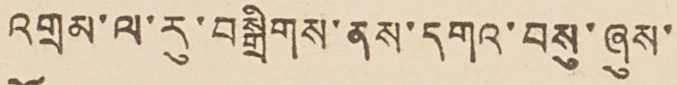འགྲམ་ལ་རུ་བསྒྲིགས་ནས་དགའ་བསུ་ཞུས་
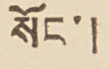སོང་།
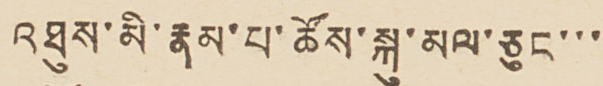འཐུས་མི་རྣམ་པ་ཚོས་སྐུ་མལ་ཅུང་་་
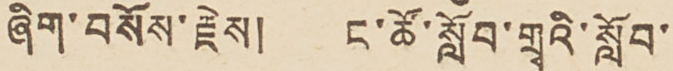ཞིག་བསོས་རྗེས། ང་ཚོ་སློབ་གྲྭའི་སློབ་
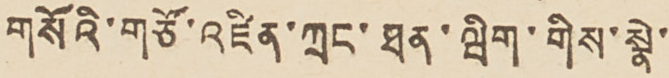གསོའི་གཙོ་འཛིན་ཀྲང་ཐན་ཝིག་གིས་སྣེ་
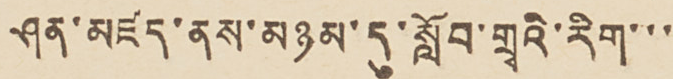ཤན་མཛད་ནས་མཉམ་དུ་སློབ་གྲྭའི་རིག་་་
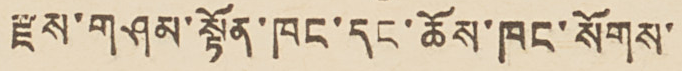རྫས་གཤམ་སྟོན་ཁང་དང་ཆོས་ཁང་སོགས་
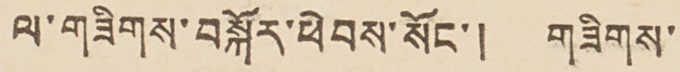ལ་གཟིགས་བསྐོར་ཕེབས་སོང་། གཟིགས་
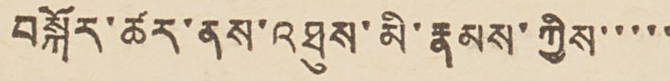བསྐོར་ཚར་ནས་འཐུས་མི་རྣམས་ཀྱིས་་་་་
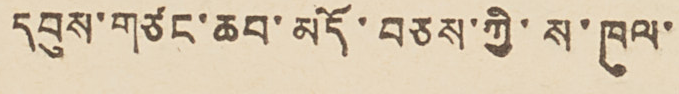དབུས་གཙང་ཆབ་མདོ་བཅས་ཀྱི་ས་ཁུལ་
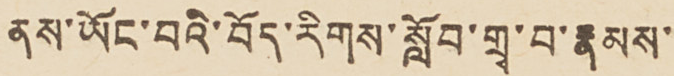ནས་ཡོང་བའི་བོད་རིགས་སློབ་གྲྭ་བ་རྣམས་
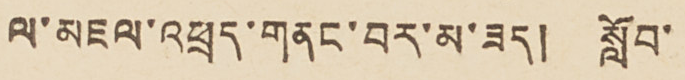ལ་མཇལ་འཕྲད་གནང་བར་མ་ཟད། སློབ་
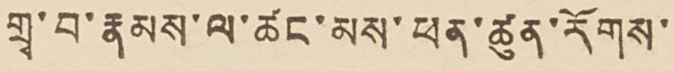གྲྭ་བ་རྣམས་ལ་ཚང་མས་ཕན་ཚུན་རོགས་
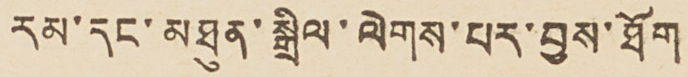རམ་དང་མཐུན་སྒྲིལ་ལེགས་པར་བྱས་ཐོག
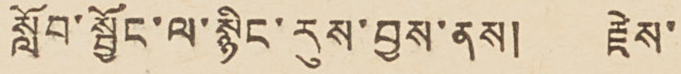སློབ་སྦྱོང་ལ་སྙིང་རུས་བྱས་ནས། རྗེས་
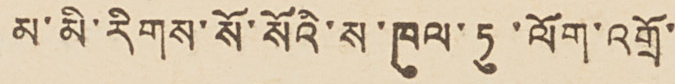མ་མི་རིགས་སོ་སོའི་ས་ཁུལ་ཏུ་ལོག་འགྲོ་
